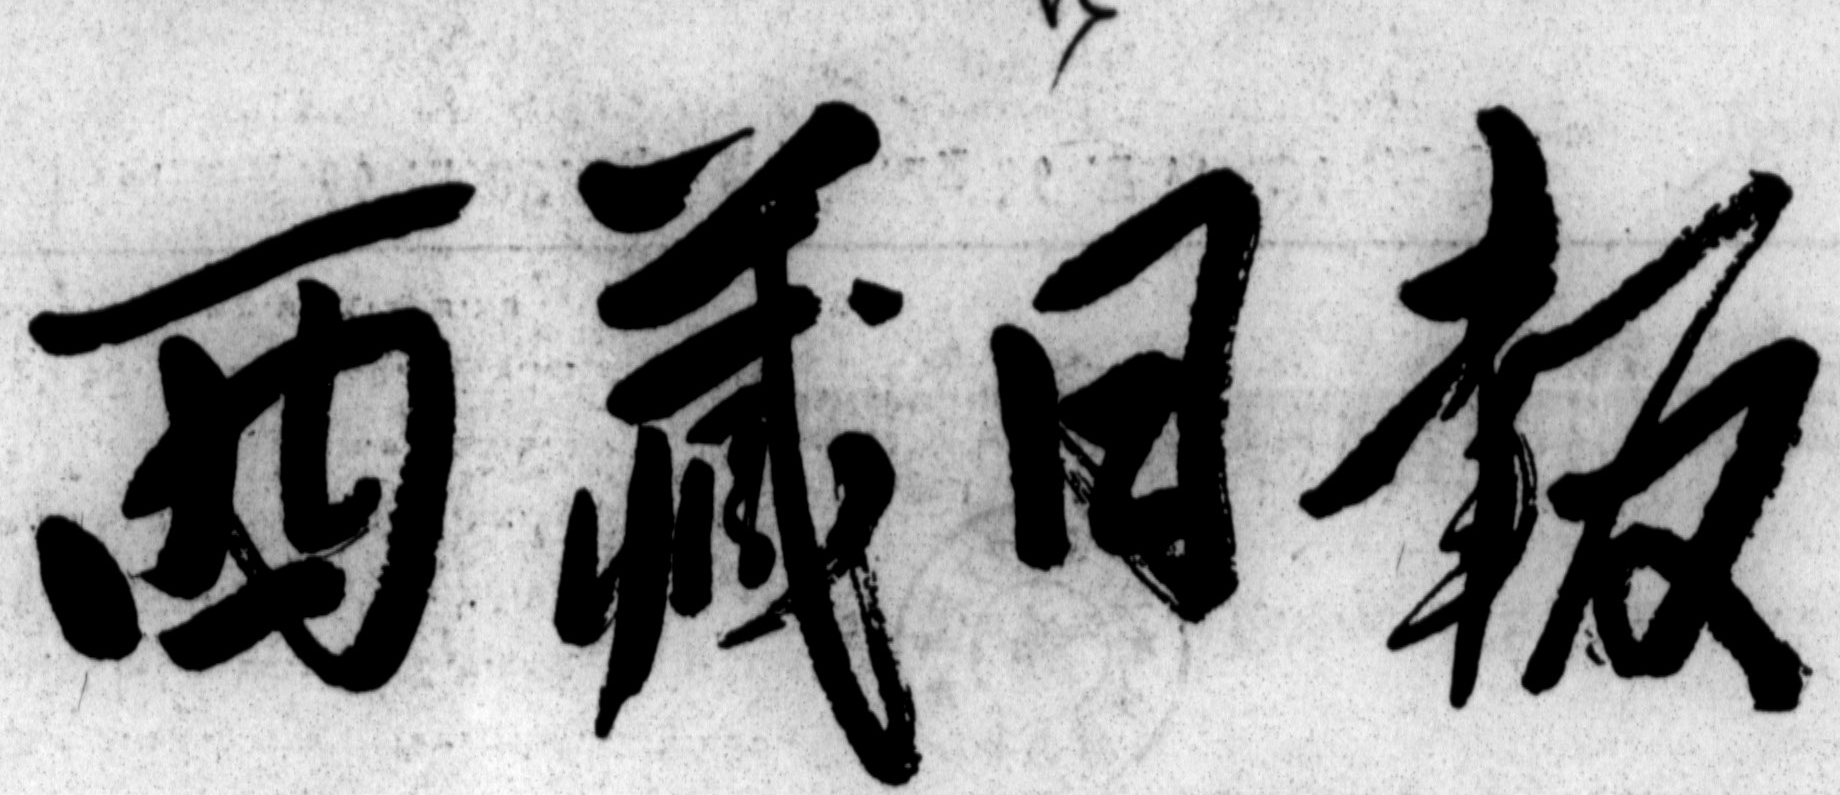西藏日報
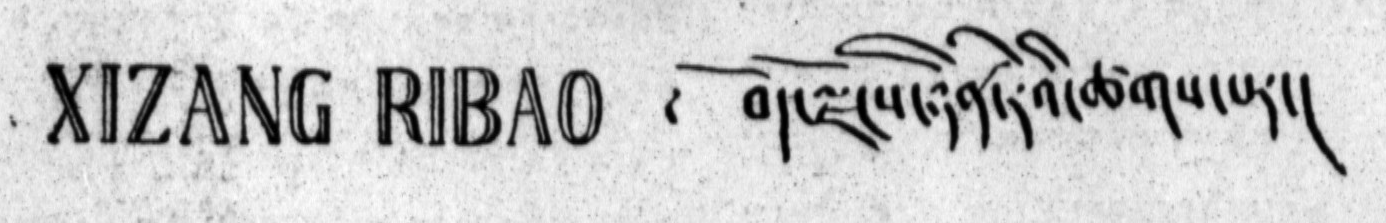XIZANG RIBAO ༄༅༎ བོད་ལྗོངས་ཉིན་རེའི་ཚགས་པར།
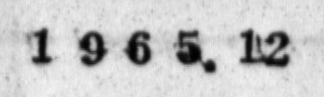1965. 12
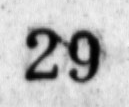29
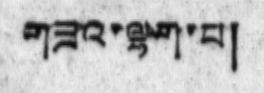གཟའ་ལྷག་པ།
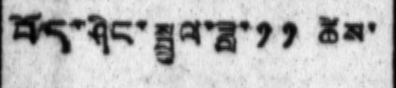བོད་ཤིང་སྦྲུལ་ཟླ་༡༡ ཚེས་
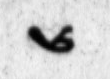༦
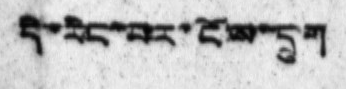དེ་རིང་པར་ངོས་དྲུག
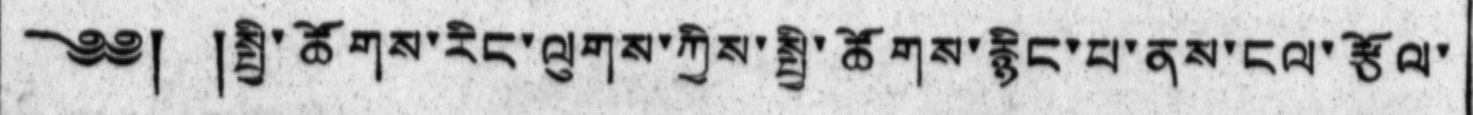༄༅། །སྤྱི་ཚོགས་རིང་ལུགས་ཀྱི་རྙིང་པ་ནས་ངལ་རྩོལ་
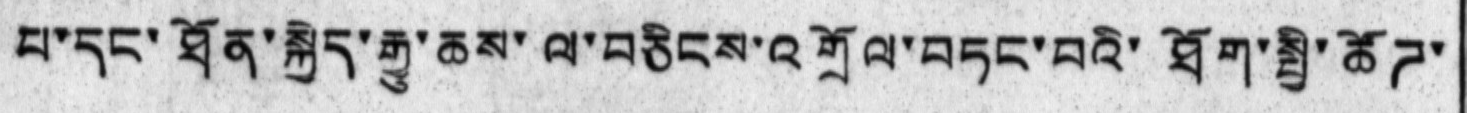པ་དང་ཐོན་སྐྱེད་རྒྱུ་ཆས་ལ་བཅིངས་འགྲོལ་བཏང་བའི་ཐོག་སྤྱི་ཚོཌ་
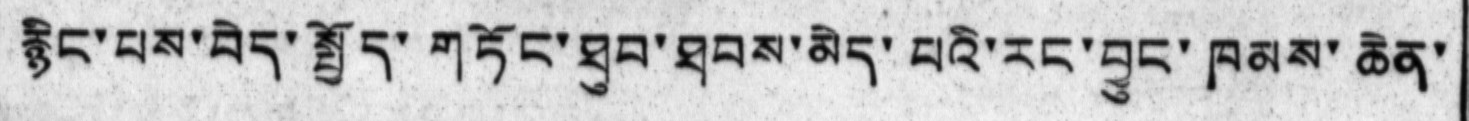རྙིང་པས་བེད་སྤྱོད་གཏོང་ཐུབ་ཐབས་མེད་པའི་རང་བྱུང་ཁམས་ཆེན་
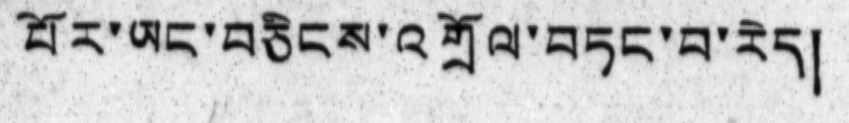པོར་ཡང་བཅིངས་འགྲོལ་བཏང་བ་རེད།
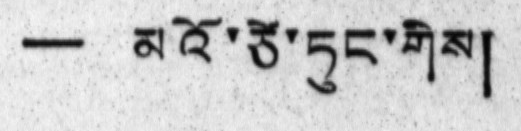— མའོ་ཙེ་ཏུང་གིས།
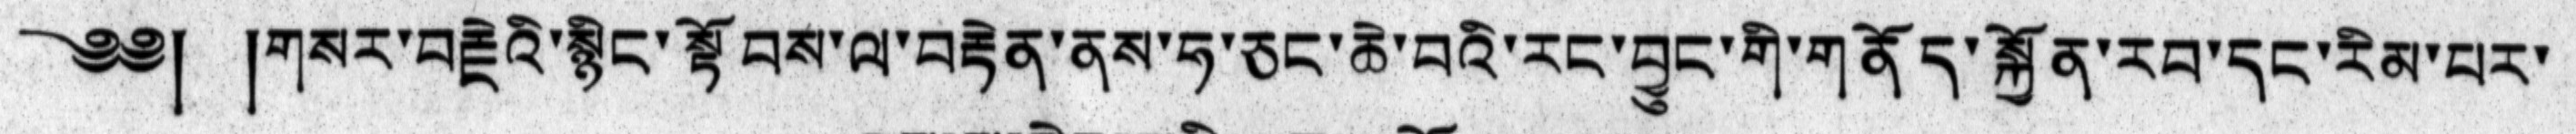༄༅། །གསར་བརྗེའི་སྙིང་སྟོབས་ལ་བརྟེན་ནས་ཧ་ཅང་ཆེ་བའི་རང་བྱུང་གི་གནོད་སྐྱོན་རབ་དང་རིམ་པར་
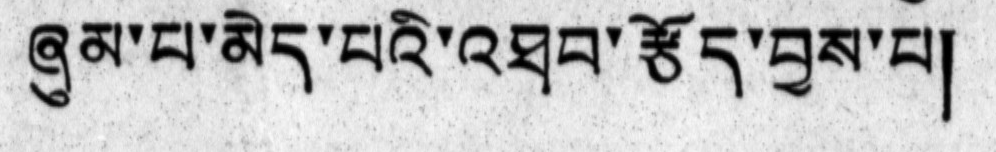ཞུམ་པ་མེད་པའི་འཐབ་རྩོད་བྱས་པ།
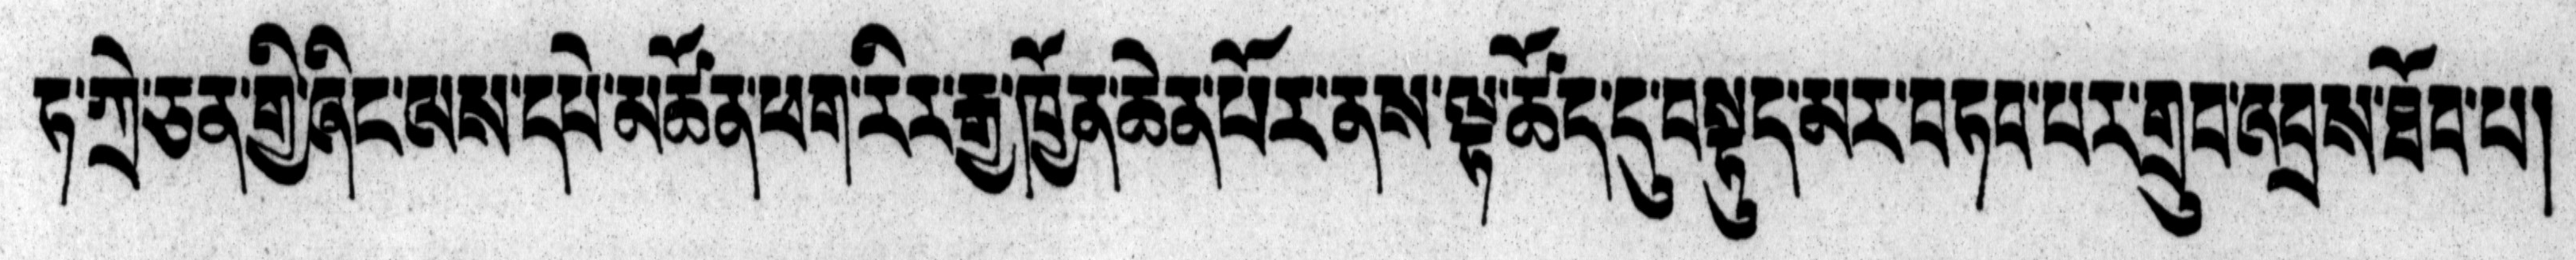ཏ་ཀྲེ་ཅན་གྱི་ཞིང་ལས་དཔེ་མཚོན་ཕག་རིར་རྒྱ་ཁྱོན་ཆེན་པོར་ནས་ལྟ་ཚོད་དུབསྟུད་མར་བཏབ་པར་གྲུབ་འབྲས་ཐོབ་པ།
